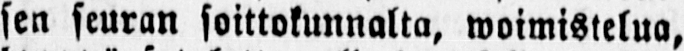sen seuran soittokunnalta, woimistelua,
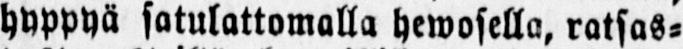hyppyä satulattomall, hewosella, ratsas-
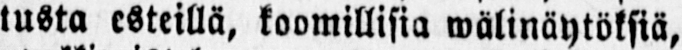tusta esteillä, koomillisia wälinäytöksiä,
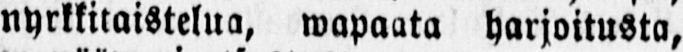nyrkkitaistelua, wapaata harjoitusta,
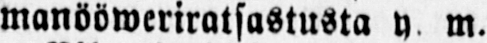manööweriratstusta y m.
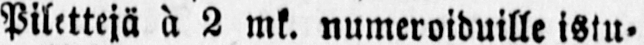Pilettejä à 2 mk. numeroiduille istu-
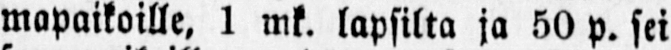mapaikoille. 1 mk. lapsilta ja 50 p. sei
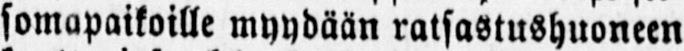somapaikoille myydään ratsastushuoneen
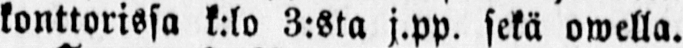konttorissa k.lo 3:sta j.pp. sekä owella.
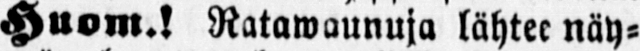Huom.! Ratawaunuja lähtee näy-
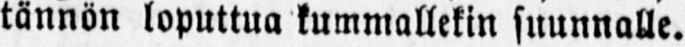tännön loputtua tummallekin suunnalle.
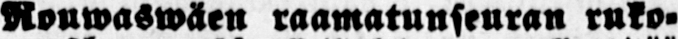Rouwaswäen raamatunseuran ruko-
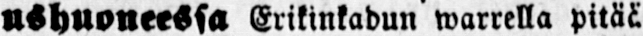ushuoneessa Erikinkadun warrella pitää
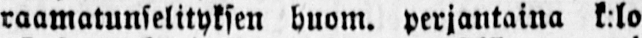raamatunselityksen huom. perjantaina k:lo
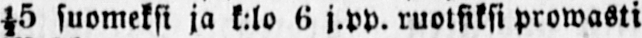1/2 5 suomeksi ja kelo 6 j.pp. ruotsiksi prowasti
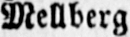Mellberg
